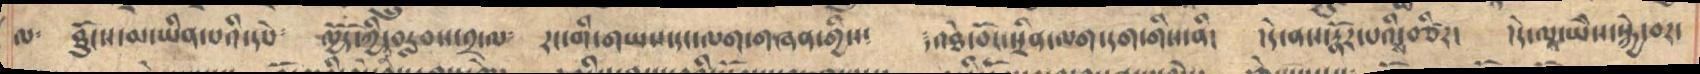ལ༴  ཐོུངས་མ་ཡིན་པའི་དཔེ༴   ལྱོད་ཀྱི་བརླབས་༢་ལ༴  རང་གི་གཡས་དང་ལག་གཞན་གྱིས༴   ༴འཐེ་བོང་སྲིན་ལག་དག་གིས་ནི།   ། དེ་ནས་རྣོར་པའི་བཙིར།   །དེ་ལྟ་ཡེེས་སྐྱེ་བར་
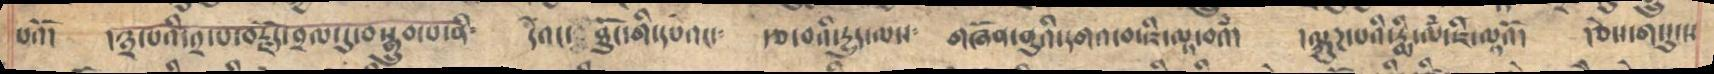པའོ།  །༣་པའི་༢་པ་བརྗོད་བྲལ་དུ་བསྒྲུབ་པ་ནི་  དེའང་ཐོུང་གི་དཔེ་དང༴  གཞོན་ནུའི་དགའ་བ་ཇི་ལྟ་བའཾ།  །ལྐུཌ་པའི་རྨི་ལྃ་ཇི་ལྟའོ།  །ཅེས་གསུངས
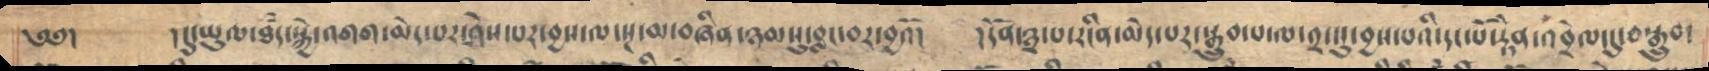༄༅།      །དུ་ཡུལ་ཐཾད་སྐྱེ་འགག་མེད་པར་བྱས་ལ་སྔ་མ་བཞིན་ཉམསུ་བླང་བར་བྱའོ།   །དོན་༣་པ་རངིན་མེད་པར་སྒྲུབ་པ་ལ་༢་སུ་བྱས་པའི་དང་པོ་རྟེན་འབྲེལ་དུ་བསྒྲུབ་
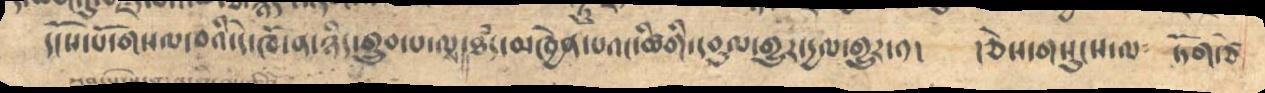དངོས་པོ་གསལ་བའི་དེ་ཁོ་ན་ཉིད་གྲུབ་པ་ལས་ཐཾད་མཁྱེན་པའང་ཚིགི་དབུལ་གྱུར་དྱལ་གྱུར་༡།   །ཅེས་གསུངས་ལ༴  ཏོག་ཙེ་
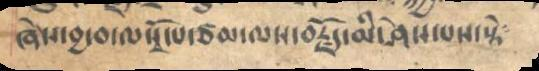ཞེས་བྱ་བ་ལསྭོ་པ་ཙམ་ལས་བརྗོད་མི་ཤེས་པས་སྟེ༴
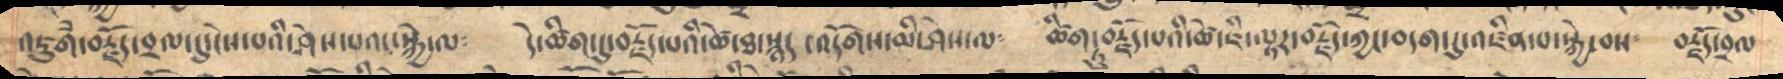འཇུག་བརྗོད་བྲལ་དུ་ངེས་པའི་ཤེས་ལའང་སྐྱེ་ལ༴  དེ་ཚིག་དུ་བརྗོད་པའི་ཚེ་ཐ་སྙད་འདོགས་མི་ཤེས་ལ༴   ཚིག་བརྗོད་པའི་ཚེ་ཇི་ལྟར་བརྗོད་ཀྱང་བདག་དུ་འཛིན་པ་སྐྱེ་བས   བརྗོད་བྲལ
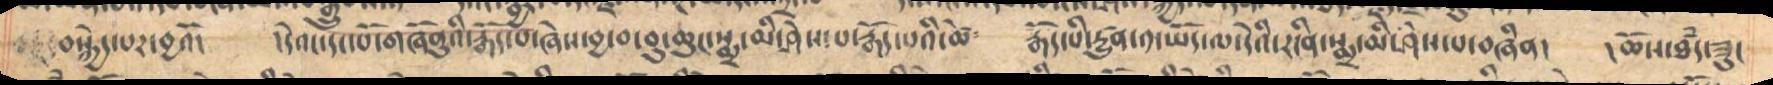བསྐྱེད་པར་བྱའོ།  །དེའང་དང་པོ་གཞོནུའི་རྒོད་པ་ཞེས་བྱ་བ་བུ་ཆུང་སྨྲ་མི་ཤེས་པ་རྒོད་པའི་ཚེ༴  རྒོད་པའི་རྱུཚན་༡་ཡོད་ལ་དེའི་རངིན་སྨྲ་མི་ཤེས་པ་བཞིན།  །ཆོས་ཐཾད་ཟུང
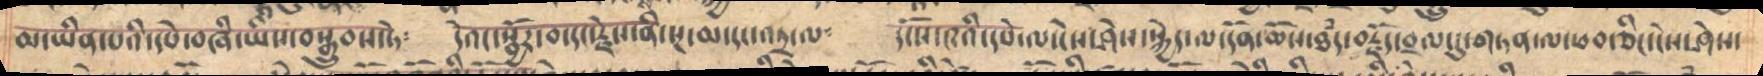མ་ཡིན་པའི་དཔེ་བཞི་ཡིས་བསྒྲུབས་དེ༴  དེའང་སྦྱོར་བ་དང་རྗེས་ནི་སྔ་མ་དང་འདྲ་ལ༴  དངོས་༩འི་དཔེ་ལ་ངེས་ཤེས་སྐྱེད་ལ་དོན་ཆོས་ཐཾད་བརྗོད་བྲལ་དུ་གཏན་ལ་ཕབ་ཅིང་ངེས་ཤེས་
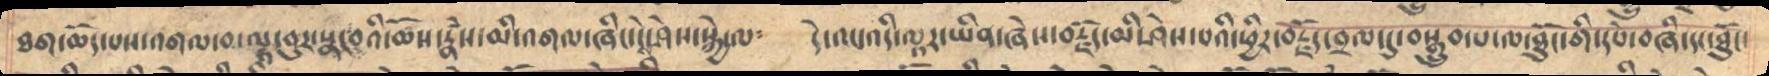ཐག་ཆོད་པས་འགལ་བ་ལྟ་བུར་སྣངབའི་ཆོས་རྣཾས་མི་འགལ་ཞིང་ངེ་ཤེས་སྐྱེ་ལ༴  དེ་འང་འདི་ལྟར་ཡིན་ཞེས་བརྗོད་མི་ཤེས་པའི་ཕྱིར་བརྗོད་བྲལ་དུ་བསྒྲུབ་པ་ཐོུང་གི་དཔེ་བཞི་དང་ཐོུང་
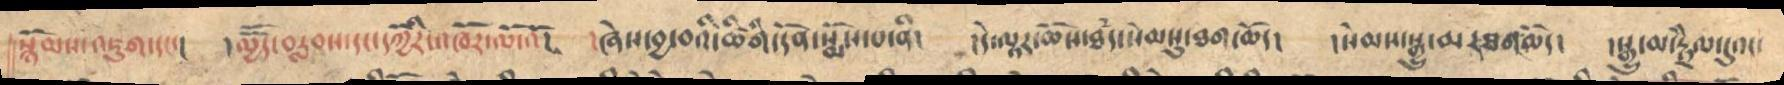སྙོམས་འཇུག་དང་།    །ལྱོོད་བརླབས་དང་དཀྱོིར་འཁོར་ལོ་འོ།   །ཞེས་་བྱ་བ་འི་ཚིགི་དོན་སྨོས་པ་ནི།   །དེ་ལྟར་ཆོས་ཐྃད་སེམསུ་ཐག་ཆོད།   །སེམས་སྒྱུ་མརཐག་ཆོད་   །སྒྱུ་་མ་རྟྲཻལ་དུའང་
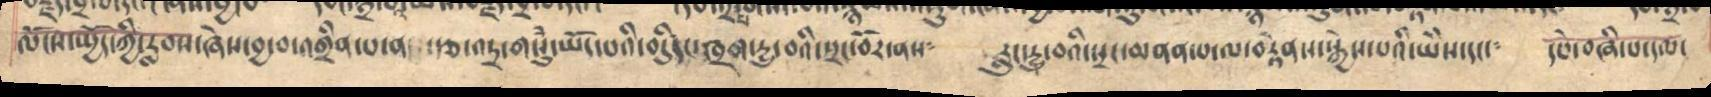ལོངས་སྤྱོད་ཀྱི་རླབས་ཞེས་བྱ་བ་འགྲིན་པ་ན་རྩ་འདྲ་གསུཾ་ཡོད་པའི་བདིདང་ཁྲག་དྱུ་བའི་སྲང་བོར་ནས༴     རླུང་དྱུ་བའི་སྲང་མནན་པ་ལ་བརྟེནས་སྐྱེས་པའི་ཡིས་དང་༴   དཔེ་བཞི་པ་དལ་
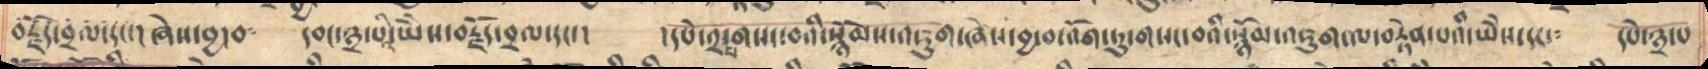བརྗོད་བྲལ་དང་། ཞེས་བྱ་བ༴  དབང་༣་པའི་ཡེེས་བརྗོད་བྲལ་དང་།  །དཔེ་༢་པ་གསང་བའི་སྙོམས་འཇུག་ཞེས་བྱ་བ་འོག་ཏུ་གསང་བའི་སྙོམ་འཇུག་ལ་བརྟེན་པའི་ཡེེས་དང་༴  དཔེ་༣་པ
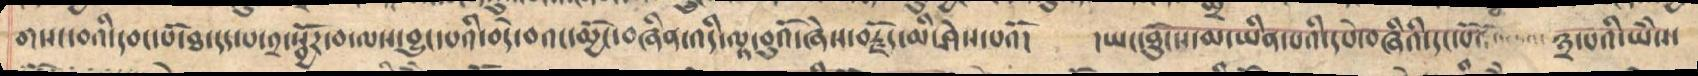གསང་བའི་དབང་པོ་ཐ་དད་པ་༢་སྦྱོར་བ་ལས་བྱུང་བའི་བདེ་བའང་མྱོང་བཞིན་འདི་ལྟ་་བུའི་ཞེས་བརྗོད་མི་ཤེས་པའོ།    །ཡང་ཐོུངས་མ་ཡིན་པའི་དཔེ་བཞིའི་དང་པོ    ༣་པའི་ཡེེས་
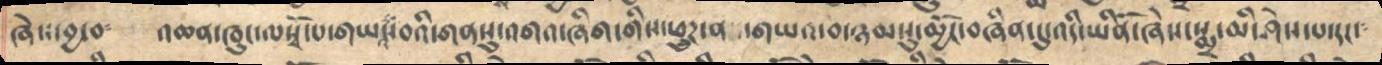ཞེས་བྱ་བ༴   འཆན་ཁུང་ལསྭོ་པ་གཡས་བའི་གནསུ་འགའ་ཞིག་གིས་ཕྱུཌ་ན ་གཡའ་བ་ཉམསུ་མྱོང་བཞིན་དུ་འདི་ཡིན་ཞེས་སྨྲ་མི་ཤེས་པ་དང་༴
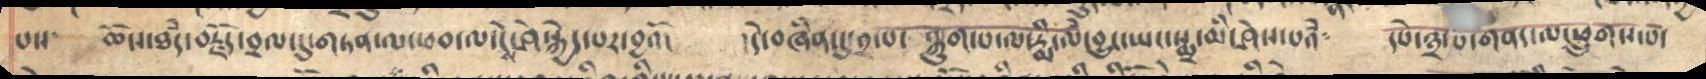པས༴      ཆོཔ་ཐཾད་བརྗོད་བྲལ་དུ་གཏན་ལ་ཕབ་ལ་ངེ་ཤེ་སྐྱེད་པར་བྱའོ།   །དེ་དཞིན་དུ་༢་པ་ ལྐུག་པ་རྨི་ལྃ་བྱུང་ཡང་སྨྲ་མི་ཤེས་པཾ༴   དཔེ་༣་པ་གནད་ཕྱུགས་པོ།
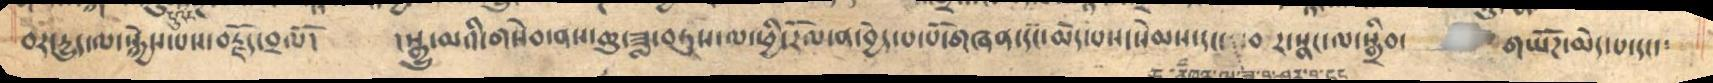བར་རྱུད་ལ་སྐྱེས་པས་བརྗོད་བྲལ་ོ།  །སྒྱུ་མའི་གསེབ་ནས་ཆུ་ཟླ་བཏུས་ལ་ཕྱི་རོལ་ན་བྱེད་པ་པོ་གཞན་དང་མེད་པས་སེམས་དང་བར་སྣང་ལ་སྒྲིབ་   གཡོཌ་མེད་པ་དང་
